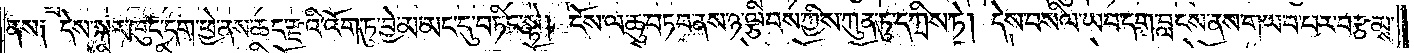ནས། དེས་སྐར་ཁུང་དག་ཕྱེ་ནས་ཆང་རྫའི་འོག་ཏུ་བྱེ་མ་མང་དུ་བཏིང་སྟེ། ངོས་ལ་ཆུ་བཏབ་ནས་ཉ་ལྕིབས་ཀྱིས་ཀུན་ཏུ་དཀྲིས་ཏེ། དེས་བསིལ་ཡབ་དག་བླངས་ནས་གཡབ་པར་བརྩམས་
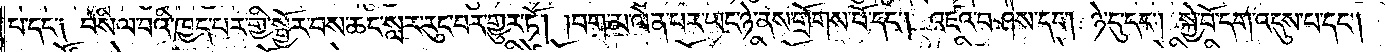པ་དང༌། བསིལ་བའི་ཁྱད་པར་གྱི་སྦྱོར་བས་ཆང་སླར་རུང་བར་གྱུར་ཏོ། །བག་མ་ལེན་པར་ཡང་ཉེ་ནས་གྲོགས་པོ་དང༌། འཛའ་བཤེས་དང༌། ཉེ་དུ་དང༌། སྐྱེ་བོ་དག་འདུས་པ་དང༌།
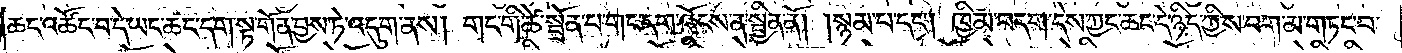ཆང་འཚོང་བ་དེ་ཡང་ཆང་དག་སྟ་གོན་བྱས་ཏེ་འདུག་ནས། གང་གི་ཚེ་སྦྲོན་པ་གང་དག་འོངས་ན་སྦྱིན་ནོ། །སྙམ་པ་དང༌། ཁྱིམ་བདག་དེས་ཀྱང་ཆང་དེ་ཉིད་ཀྱིས་བག་མ་གཏང་བ་
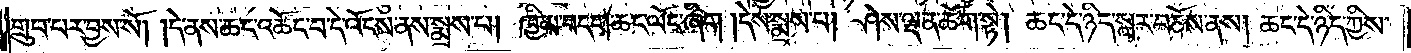གྲུབ་པར་བྱས་སོ། །དེ་ནས་ཆང་འཚོང་བ་དེ་འོངས་ནས་སྨྲས་པ། ཁྱིམ་བདག་ཆང་ལོང་ཞིག །དེས་སྨྲས་པ། ཤེས་ལྡན་ཆོག་སྟེ། ཆང་དེ་ཉིད་སླར་བཅོས་ནས། ཆང་དེ་ཉིད་ཀྱིས་
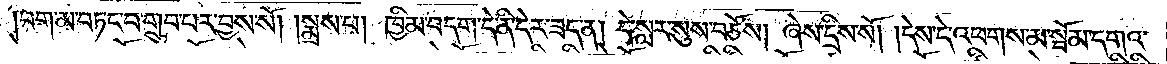བག་མ་བཏང་བ་གྲུབ་པར་བྱས་སོ། །སྨྲས་པ། ཁྱིམ་བདག་དེ་ནི་དེར་ཟད་ན། དེ་སླར་སུས་བཅོས། ཞེས་དྲིས་སོ། །དེས་དེ་འཕགས་མ་སྦོམ་དགའ་
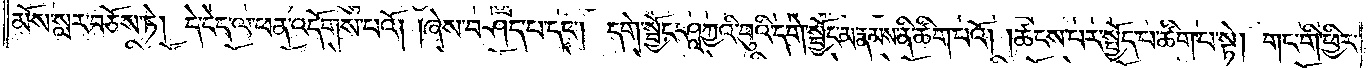མོས་སླར་བཅོས་ཏེ། དེ་ངེད་ལ་ཕན་འདོགས་པའོ། །ཞེས་བཤད་པ་དང༌། དགེ་སྦྱོང་ཤཱཀྱའི་བུའི་དགེ་སྦྱོང་མ་རྣམས་ནི་ཚིག་པའོ། །ཚངས་པར་སྤྱོད་པ་ཚིག་པ་སྟེ། གང་གི་ཕྱིར་
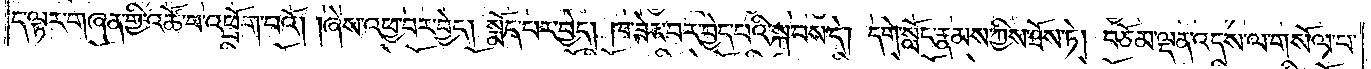ད་ལྟར་གཞན་གྱི་འཚོ་བ་འཕྲོག་པའོ། །ཞེས་འཕྱ་བར་བྱེད། སྨོད་པར་བྱེད། ཁ་ཟེར་བར་བྱེད་པའི་སྐབས་དེ། དགེ་སློང་རྣམས་ཀྱིས་ཐོས་ཏེ། བཅོམ་ལྡན་འདས་ལ་གསོལ་བ་
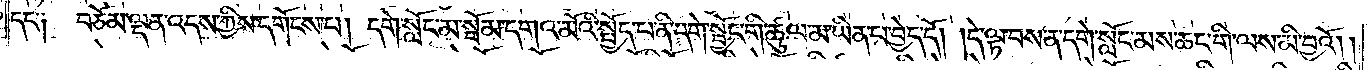དང་༑ བཅོམ་ལྡན་འདས་ཀྱིས་དགོངས་པ། དགེ་སློང་མ་སྦོམ་དགའ་མོའི་སྤྱོད་པ་ནི་དགེ་སྦྱོང་གི་ཚུལ་མ་ཡིན་པ་བྱེད་དོ། །དེ་ལྟ་བས་ན་དགེ་སློང་མས་ཆང་གི་ལས་མི་བྱའོ། །
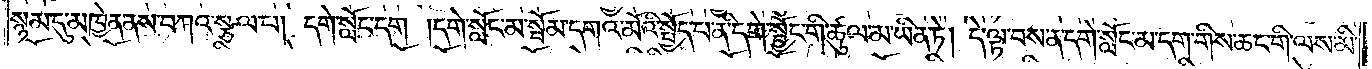སྙམ་དུ་མཁྱེན་ནས་བཀའ་སྩལ་པ། དགེ་སློང་དག །དགེ་སློང་མ་སྦོམ་དགའ་མོའི་སྤྱོད་པ་ནི་དགེ་སྦྱོང་གི་ཚུལ་མ་ཡིན་ཏེ། དེ་ལྟ་བས་ན་དགེ་སློང་མ་དག་གིས་ཆང་གི་ལས་མི་
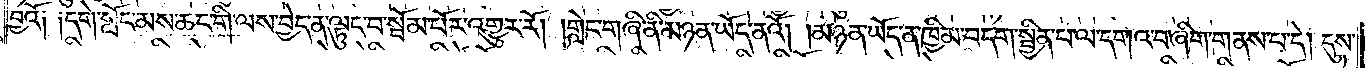བྱའོ། །དགེ་སློང་མས་ཆང་གི་ལས་བྱེད་ན་ལྟུང་བ་སྦོམ་པོར་འགྱུར་རོ། །གླེང་གཞི་ནི་མཉན་ཡོད་ནའོ། །མཉན་ཡོད་ན་ཁྱིམ་བདག་སྦྱིན་པ་ལ་དགའ་བ་ཞིག་གནས་པ་དེ། དུས་
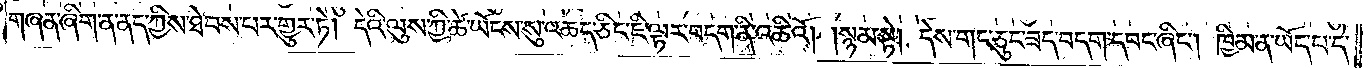གཞན་ཞིག་ན་ནད་ཀྱིས་ཐེབས་པར་གྱུར་ཏེ། དེའི་ལུས་ཀྱི་ཚེ་ཡོངས་སུ་འཆད་ཅིང་ཇི་ལྟར་བདག་ནི་འཆིའོ། །སྙམ་སྟེ། དེས་གང་ཅུང་ཟད་བདག་དབང་ཞིང༌། ཁྱིམ་ན་ཡོད་པ་དེ་
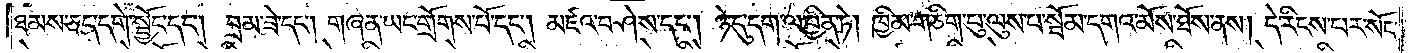ཐམས་ཅད་དགེ་སྦྱོང་དང༌། བྲམ་ཟེ་དང༌། གཞན་ཡང་གྲོགས་པོ་དང༌། མཛའ་བཤེས་དང༌། ཉེ་དུ་དག་ལ་བྱིན་ཏེ། ཁྱིམ་གཅིག་པུ་ལུས་པ་སྦོམ་དགའ་མོས་ཐོས་ནས། དེ་རིངས་པར་སོང་
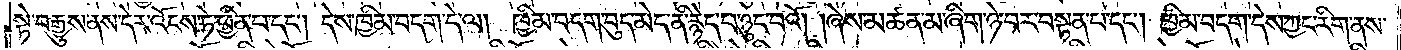སྟེ་བརྒྱུས་ནས་དེར་འོངས་ཏེ་ཕྱིན་པ་དང༌། དེས་ཁྱིམ་བདག་དེ་ལ། ཁྱིམ་བདག་བུད་མེད་ནི་རྙེད་པ་ཉུང་བའོ། །ཞེས་མཚན་མ་ཞིག་ཉེ་བར་བསྟན་པ་དང༌། ཁྱིམ་བདག་དེས་ཀྱང་རིག་ནས་
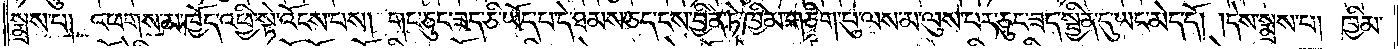སྨྲས་པ། འཕགས་མ་ཁྱོད་འཕྱི་སྟེ་འོངས་པས། གང་ཅུང་ཟད་ཅི་ཡོད་པ་དེ་ཐམས་ཅད་ངས་བྱིན་ཏེ་ཁྱིམ་གཅིག་པུ་ལས་མ་ལུས་པར་ཅུང་ཟད་སྦྱིན་དུ་ཡང་མེད་དོ། །དེས་སྨྲས་པ། ཁྱིམ་
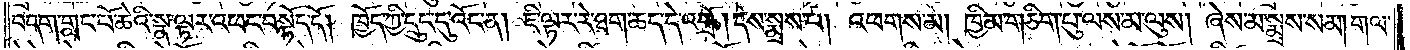བདག་གླང་པོ་ཆེའི་སྣ་ལྟར་འཕང་བསྟོད་དོ། །ཁྱོད་ཀྱི་དྲུང་དུ་འོང་ན། ཇི་ལྟར་རེ་ཐག་ཆད་དེ་འགྲོ། །དེས་སྨྲས་པ། འཕགས་མ། ཁྱིམ་གཅིག་པུ་ལས་མ་ལུས། ཞེས་མ་སྨྲས་སམ། གལ་
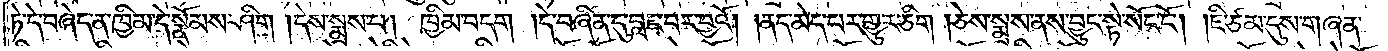ཏེ་དེ་བཞེད་ན་ཁྱིམ་དེ་སྣོམས་ཤིག །དེས་སྨྲས་པ། ཁྱིམ་བདག །དེ་བཞིན་དུ་བླང་བར་བྱའོ། །ནད་མེད་པར་གྱུར་ཅིག །ཅེས་སྨྲས་ནས་བྱུང་སྟེ་སོང་ངོ༌། །ཇི་ཙམ་དུས་གཞན་
